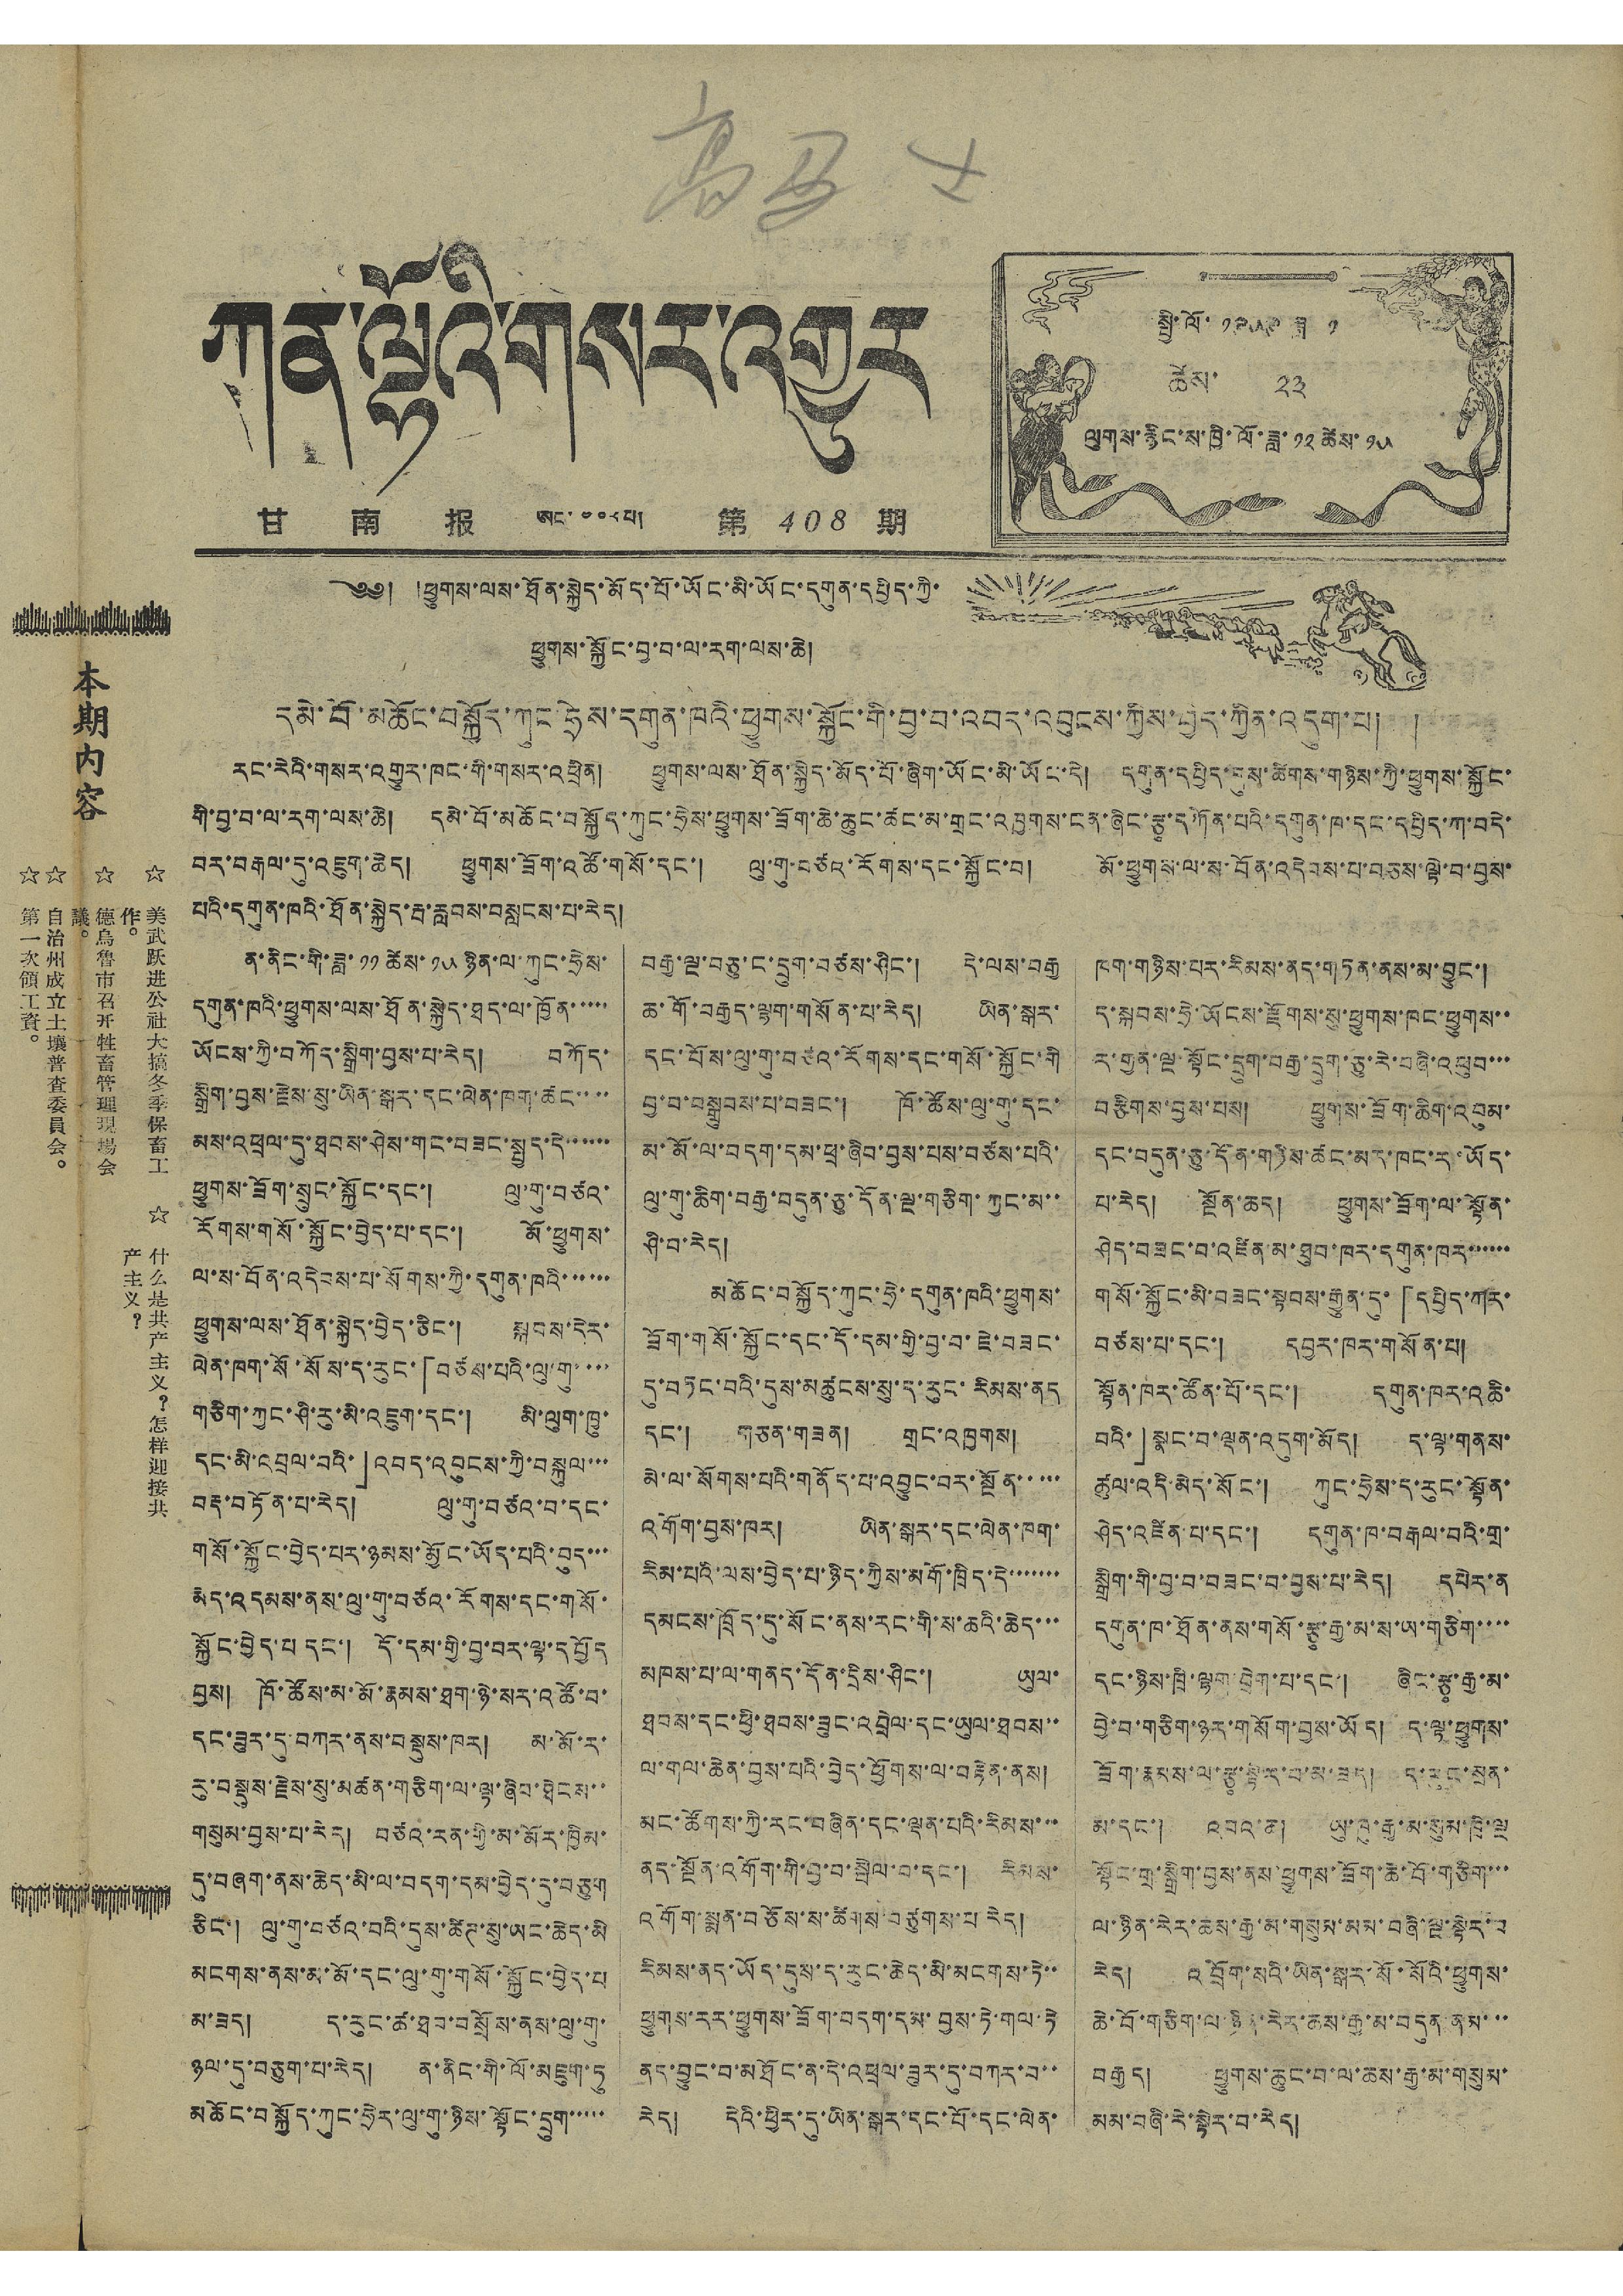ཀན་ལྷོའི་གསར་འགྱུར
甘 南 报 ཨང་ ༤༠༨ པ། 第 408 期
སྤྱི་ལོ་ ༡༩༥༩ ཟླ་ ༡
ཚེས་ ༢༣
ལུགས་རྙིང་ས་ཁྱི་ལོ་ཟླ་ ༡༢ ཚེས་ ༡༥
本期內容
☆ 美武跃进公社大搞冬季保畜工
作。
☆ 德烏魯市召开牲畜管理現場会
議。
☆ 自治州成立土壤普查委員会。
第一次領工資。
☆ 什么是共产主义？怎样迎接共
产主义？
༄༅། །ཕྱུགས་ལས་ཐོན་སྐྱེད་མོད་པོ་ཡོང་མི་ཡོང་དགུན་དཔྱིད་ཀྱི་
ཕྱུགས་སྐྱོང་བྱ་བ་ལ་རག་ལས་ཆེ།
དམེ་བོ་མཆོང་བསྐྱོད་ཀུང་ཧྲེས་དགུན་ཁའི་ཕྱུགས་སྐྱོང་གི་བྱ་བ་འབད་འབུངས་ཀྱིས་བྱེད་ཀྱིན་འདུག་པ། །
རང་རེའི་གསར་འགྱུར་ཁང་གི་གསར་འཕྲིན། ཕྱུགས་ལས་ཐོན་སྐྱེད་མོད་པོ་ཞིག་ཡོང་མི་ཡོག་དེ། དགུན་དཔྱིད་དུས་ཚིགས་གཉིས་ཀྱི་ཕྱུགས་སྐྱོང་
གི་བྱ་བ་ལ་རག་ལས་ཆེ། དམེ་བོ་མཆོང་བསྐྱོད་ཀུང་ཧྲེས་ཕྱུགས་ཟོག་ཆེ་ཆུང་ཚང་མ་གྲང་འཁྱགས་ངན་ཞིང་རྩྭ་དཀོན་པའི་དགུན་ཁ་དང་དཔྱིད་ཀ་བདེ་
བར་བརྒལ་དུ་འཇུག་ཆེད། ཕྱུགས་ཟོག་འཚོ་གསོ་དང་། ལུ་གུ་བཙའ་རོགས་དང་སྐྱོང་བ། མོ་ཕྱུགས་ལ་ས་བོན་འདེབས་པ་བཅས་ལྟེ་བ་བྱས་
པའི་དགུན་ཁའི་ཐོན་སྐྱེད་རྦ་རླབས་བསླངས་པ་རེད།
ན་ནིང་གི་ཟླ་ ༡༡ ཚེས་ ༡༥ ཉིན་ལ་ཀུང་ཧྲེས་
དགུན་ཁའི་ཕྱུགས་ལས་ཐོན་སྐྱེད་ཐད་ལ་ཁྱོན་་་་་
ཡོངས་ཀྱི་བཀོད་སྒྲིག་བྱས་པ་རེད། བཀོད་
སྒྲིག་བྱས་རྗེས་སུ་ཡིན་སྒར་དང་ལེན་ཁག་ཚང་་་་
མས་འཕྲལ་དུ་ཐབས་ཤེས་གང་བཟང་སྦྱད་དེ་་་་་་
ཕྱུགས་ཟོག་སྲུང་སྐྱོང་དང་། ལུ་གུ་བཙའ་
རོགས་གསོ་སྐྱོང་བྱེད་པ་དང་། མོ་ཕྱུགས་
ལ་ས་བོན་འདེབས་པ་སོགས་ཀྱི་དགུན་ཁའི་་་་་་
ཕྱུགས་ལས་ཐོན་སྐྱེད་བྱེད་ཅིང་། སྐབས་དེར་
ལེན་ཁག་སོ་སོས་ད་རུང་「བཙས་པའི་ལུ་གུ་་་་
གཅིག་ཀྱང་ཤི་རུ་མི་འཇུག་དང་། མི་ལུག་ཁྱུ་
དང་མི་འབྲལ་བའི་」འབད་བབུངས་ཀྱི་བསྐུལ་་་
བརྡ་བཏོན་པ་རེད། ལུ་གུ་བཙའ་བ་དང་
གསོ་སྐྱོང་བྱེད་པར་ཉམས་མྱོང་ཡོད་པའི་བུད་་་
མེད་འདམས་ནས་ལུ་གུ་བཙའ་རོགས་དང་གསོ་
སྐྱོང་བྱེད་པ་དང་། དོ་དམ་གྱི་བྱ་བར་ལྟ་དཔྱོད
བྱས། ཁོ་ཚོས་མ་མོ་རྣམས་ཐག་ཉེ་སར་འཚོ་བ་
དང་ཟུར་དུ་བཀར་ནས་བསྡུས་ཁར། མ་མོ་ར་
རུ་བསྡུས་རྗེས་སུ་མཚན་གཅིག་ལ་ལྟ་ཞིབ་ཐེངས་་
གསུམ་བྱས་པ་རེད། བཙའ་རན་གྱི་མ་མོར་ཁྱིམ་
དུ་བཞག་ནས་ཆེད་མི་ལ་བདག་དམ་བྱེད་དུ་བཅུག
ཅིང་། ལུ་གུ་བཙའ་བའི་དུས་ཚིཌ་སུ་ཡང་ཆེད་མི
མངགས་ནས་མ་མོ་དང་ལུ་གུ་གསོ་སྐྱོང་བྱེད་པ
མ་ཟད། ད་རུང་ཚ་ཐབ་བསྲོས་ནས་ལུ་གུ་
ཉལ་དུ་བཅུག་པ་རེད། ན་ནིང་གི་ལོ་མཇུག་ཏུ
མཆོང་བསྐྱོད་ཀུང་ཧྲེར་ལུ་གུ་ཉིས་སྟོང་དུག་་་་་
བརྒྱ་ལྔ་བཅུ་ང་དྲུག་བཙས་ཤིང་། དེ་ལས་བརྒྱ
ཆ་གོ་བརྒྱད་ལྷག་གསོན་པ་རེད། ཡིན་སྒར་
དང་པོས་ལུ་གུ་བཙའ་རོགས་དང་གསོ་སྐྱོང་གི
བྱ་བ་བསྒྲུབས་པ་བཟང་། ཁོ་ཚོས་ལུ་གུ་དང་
མ་མོ་ལ་བདག་དམ་ཕྲ་ཞིབ་བྱས་པས་བཙས་པའི་
ལུ་གུ་ཆིག་བརྒྱ་བདུན་ཅུ་དོན་ལྔ་གཅིག་ཀྱང་མ་་
ཤི་བ་རེད།
མཆོང་བསྐྱོད་ཀུང་ཧྲེ་དགུན་ཁའི་ཕྱུགས་
ཟོག་གསོ་སྐྱོང་དང་དོ་དམ་གྱི་བྱ་བ་ཇེ་བཟང་
དུ་བཏང་བའི་དུས་མཚུངས་སུ་ད་རུང་རིམས་ནད
དང་། གཅན་གཟན། གྲང་འཁྱགས།
མེ་ལ་སོགས་པའི་གནོད་པ་འབྱུང་བར་སྔོན་་་་་
འགོག་བྱས་ཁར། ཡིན་སྒར་དང་ལེན་ཁག་
རིམ་པའི་ལས་བྱེད་པ་ཉིད་ཀྱིས་མགོ་ཁྲིད་དེ་་་་་་་
དམངས་ཁྲོད་དུ་སོང་ནས་རང་གི་ས་ཆའི་ཆེད་་་
མཁས་པ་ལ་གནད་དོན་དྲིས་ཤིང་། ཡུལ་
ཐབས་དང་ཕྱི་ཐབས་ཟུང་འབྲེལ་དང་ཡུལ་ཐབས་་
ལ་གལ་ཆེན་བྱས་པའི་བྱེད་ཕྱོགས་ལ་བརྟེན་ནས།
མང་ཚོགས་ཀྱི་རང་བཞིན་དང་ལྡན་པའི་རིམས་་་
ནད་སྔོན་འགོག་གི་བྱ་བ་སྦེལ་བ་དང་། རིམས་
འགོག་སྨན་བཅོས་ས་ཚིགས་བཙུགས་པ་རེད།
རིམས་ནད་ཡོད་དུས་ད་རུང་ཆེད་མི་མངགས་ཏེ་་
ཕྱུགས་རར་ཕྱུགས་ཟོག་བདག་དམ་བྱས་ཏེ་གལ་ཏེ
ནད་བྱུང་བ་མཐོང་ན་དེ་འཕྲལ་ཟུར་དུ་བཀར་བ་་
རེད། དེའི་ཕྱིར་དུ་ཡིན་སྒར་དང་པོ་དང་ལེན་
ཁག་གཉིས་པར་རིམས་ནད་གཏན་ནས་མ་བྱུང་།
ད་སྐབས་ཧྲེ་ཡོངས་རྫོགས་སུ་ཕྱུགས་ཁང་ཕྱུགས་་
ར་གྱན་ལྔ་སྟོང་དྲུག་བརྒྱ་དྲུག་ཅུ་རེ་བཞི་འཕུབ་་་
བརྩིགས་བྱས་པས། ཕྱུགས་ཟོག་ཆིག་འབུམ་
དང་བདུན་ཅུ་དོན་གཉིས་ཚང་མར་ཁང་ར་ཡོད་
པ་རེད། སྔོན་ཆད། ཕྱུགས་ཟོག་ལ་སྟོན་
ཤེད་བཟང་བ་འཛིན་མ་ཐུབ་ཁར་དགུན་ཁར་་་་་་
གསོ་སྐྱོང་མི་བཟང་སྟབས་རྒྱུན་དུ་「དཔྱིད་ཀར་
བཙས་པ་དང་། དབྱར་ཁར་གསོན་པ།
སྟོན་ཁར་ཚོན་པོ་དང་། དགུན་ཁར་འཆི་
བའི་」སྣང་བ་ལྡན་འདུག་མོད། ད་ལྟ་གནས་
ཚུལ་འདི་མེད་སོང་། ཀུང་ཧྲེས་ད་རུང་སྟོན་
ཤེད་འཛིན་པ་དང་། དགུན་ཁ་བརྒལ་བའི་གྲ་
སྒྲིག་གི་བྱ་བ་བཟང་བ་བྱས་པ་རེད། དཔེར་ན
དགུན་ཁ་ཐོན་ནས་གསོ་རྩྭ་རྒྱ་མ་ས་ཡ་གཅིག་་་་
དང་ཉིས་ཁྲི་ལྷག་བྲེག་པ་དང་། ཞིང་རྩྭ་རྒྱ་མ་
བྱེ་བ་གཅིག་ཉར་གསོག་བྱས་ཡོད། ད་ལྟ་ཕྱུགས་
ཟོག་རྣམས་ལ་རྩྭ་སྟེ་ར་བ་མ་ཟད། ད་རུང་སྲན་
མ་དང་། འབའ་ཆ། ཡུ་ཁུ་རྒྱ་མ་སུམ་ཁྲི་ལྔ
སྟོང་གྲ་སྒྲིག་བྱས་ནས་ཕྱུགས་ཟོག་ཆེ་བོ་གཅིག་་་
ལ་ཉིན་རེར་ཆས་རྒྱ་མ་གསུམ་མམ་བཞི་ལྔ་སྟེར་བ
རེད། འབྲོག་སའི་ཡིན་སྒར་སོ་སོའི་ཕྱུགས་
ཆེ་བོ་གཅིག་ལ་ཉིན་རེར་ཆས་རྒྱ་མ་བདུན་ནམ་་་
བརྒྱད། ཕྱུགས་ཆུང་བ་ལ་ཆས་རྒྱ་མ་གསུམ་
མམ་བཞི་རེ་སྟེར་བ་རེད།
